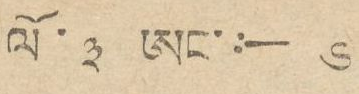ལོ་ ༣ ཨང་:— ༦
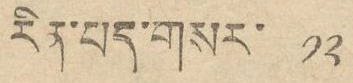རིན་པད་གསར་ ༡༢
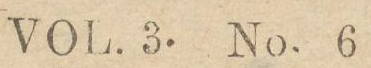VOL. 3. No. 6
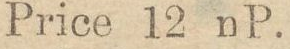Price 12 nP.
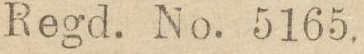Regd. No. 5165.
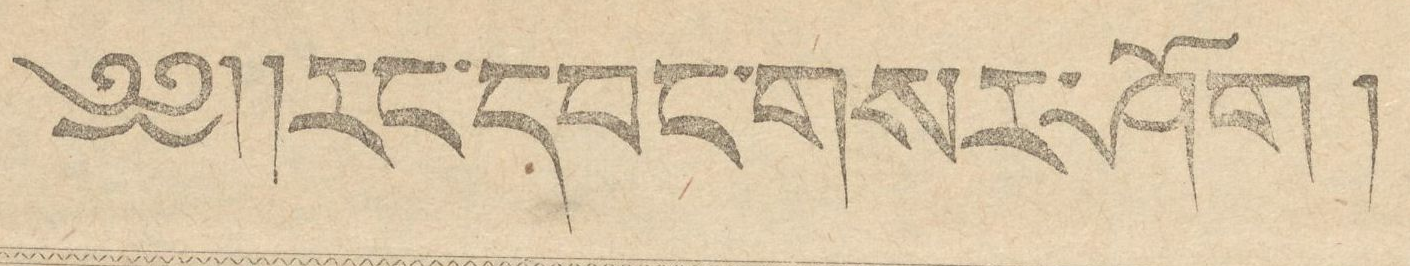༄༅།རང་དབང་གསར་ཤོག །
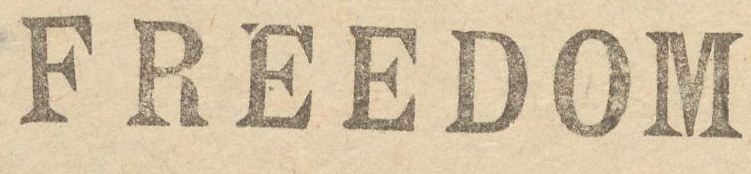FREEDOM
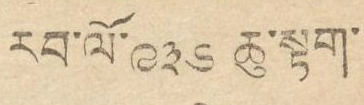རབ་ལོ་ ༩༣༦ ཆུ་སྟག་
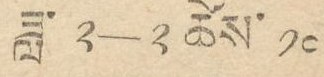ཟླ་ ༢—༢ ཚེས་ ༡༠
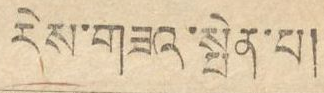རེས་གཟའ་སྤེན་པ།
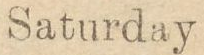Saturday
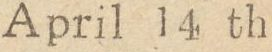April 14 th
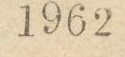1962
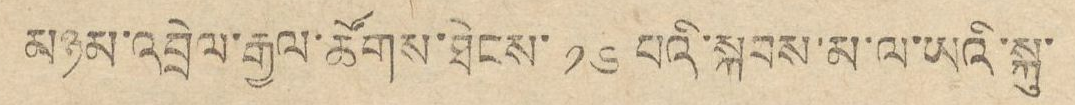མཉམ་འབྲེལ་རྒྱལ་ཚོགས་ཐེངས་ ༡༦ པའི་སྐབས་མ་ལ་ཡའི་སྐུ་
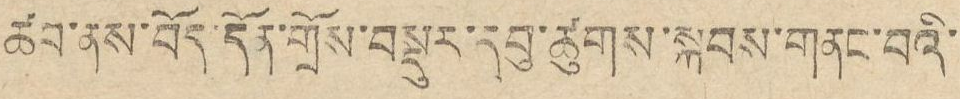ཚབ་ནས་བོད་དོན་གྲོས་བསྡུར་དབུ་ཚུགས་སྐབས་གནང་བའི་
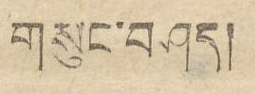གསུང་བཤད།
